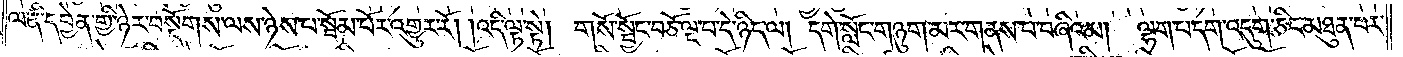ལ་ནི་དབྱེན་གྱི་ཉེར་བསྡོགས་ལས་ཉེས་པ་སྦོམ་པོར་འགྱུར་རོ། །འདི་ལྟ་སྟེ། གསོ་སྦྱོང་བཅོ་ལྔ་པ་དེ་ཉིད་ལ། དགེ་སློང་གཉུག་མར་གནས་པ་བཞིའམ། ལྷག་པ་དག་འདུག་ཅིང་མཐུན་པར་
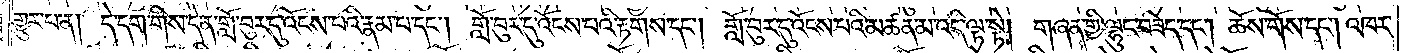གྱུར་པ་ན། དེ་དག་གིས་དེ་ན་གློ་བུར་དུ་འོངས་པའི་རྣམ་པ་དང༌། གློ་བུར་དུ་འོངས་པའི་རྟགས་དང༌། གློ་བུར་དུ་འོངས་པའི་མཚན་མ་འདི་ལྟ་སྟེ། གཞན་གྱི་ལྷུང་བཟེད་དང༌། ཆོས་གོས་དང༌། འཁར་
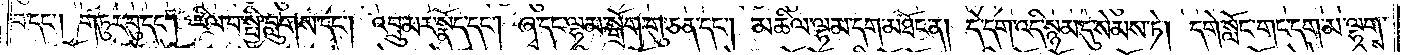བ་དང༌། གཏུར་བུ་དང༌། རིལ་བ་སྤྱི་བླུགས་དང༌། འབྲུ་མར་སྣོད་དང༌། ཞྭ་དང་ལྷམ་སྒྲོག་གུ་ཅན་དང༌། མཆིལ་ལྷམ་དག་མཐོང་ན། དེ་དག་འདི་སྙམ་དུ་སེམས་ཏེ། དགེ་སློང་གང་དག་མ་ལྷགས་
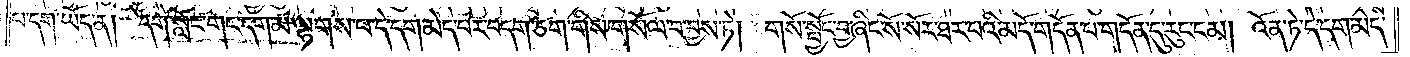པ་དག་ཡོད་ན། དགེ་སློང་གང་དག་མ་ལྷགས་པ་དེ་དག་མེད་པར་བདག་ཅག་གིས་གསོལ་བ་བྱས་ཏེ། གསོ་སྦྱོང་བྱ་ཞིང་སོ་སོར་ཐར་པའི་མདོ་གདོན་པ་གདོན་དུ་རུང་ངམ། འོན་ཏེ་དེ་དག་མེད་
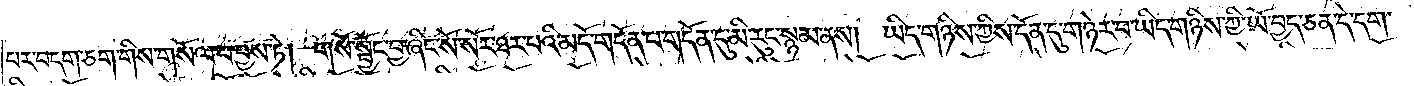བར་བདག་ཅག་གིས་གསོལ་བ་བྱས་ཏེ། གསོ་སྦྱོང་བྱ་ཞིང་སོ་སོར་ཐར་པའི་མདོ་གདོན་པ་གདོན་དུ་མི་རུང་སྙམ་ནས། ཡིད་གཉིས་ཀྱིས་དོན་དུ་གཉེར་བ་ཡིད་གཉིས་ཀྱི་ཡོ་བྱད་ཅན་དེ་དག་
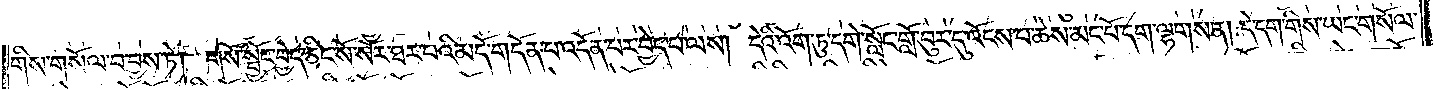གིས་གསོལ་བ་བྱས་ཏེ། གསོ་སྦྱོང་བྱེད་ཅིང་སོ་སོར་ཐར་པའི་མདོ་གདོན་པ་འདོན་པར་བྱེད་པ་ལས། དེའི་འོག་ཏུ་དགེ་སློང་གློ་བུར་དུ་འོངས་པ་ཆེས་མང་པོ་དག་ལྷགས་ན། དེ་དག་གིས་ཡང་གསོལ་
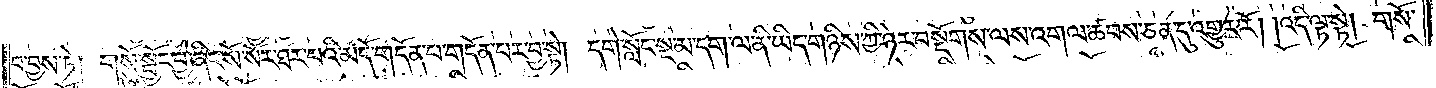བ་བྱས་ཏེ། གསོ་སྦྱོང་བྱ་ཞིང་སོ་སོར་ཐར་པའི་མདོ་གདོན་པ་གདོན་པར་བྱ་སྟེ། དགེ་སློང་སྔ་མ་དག་ལ་ནི་ཡིད་གཉིས་ཀྱི་ཉེར་བསྡོགས་ལས་འགལ་ཚབས་ཅན་དུ་འགྱུར་རོ། །འདི་ལྟ་སྟེ། གསོ་
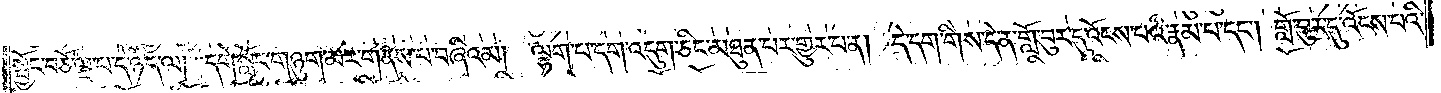སྦྱོང་བཅོ་ལྔ་པ་དེ་ཉིད་ལ། དགེ་སློང་གཉུག་མར་གནས་པ་བཞིའམ། ལྷག་པ་དག་འདུག་ཅིང་མཐུན་པར་གྱུར་པ་ན། དེ་དག་གིས་དེ་ན་གློ་བུར་དུ་འོངས་པའི་རྣམ་པ་དང༌། གློ་བུར་དུ་འོངས་པའི་
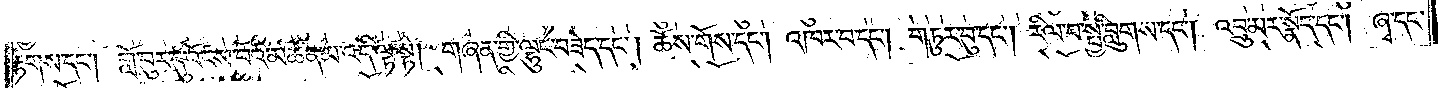རྟགས་དང༌། གློ་བུར་དུ་འོངས་པའི་མཚན་མ་འདི་ལྟ་སྟེ། གཞན་གྱི་ལྷུང་བཟེད་དང༌། ཆོས་གོས་དང༌། འཁར་བ་དང༌། གཏུར་བུ་དང༌། རིལ་བ་སྤྱི་བླུགས་དང༌། འབྲུ་མར་སྣོད་དང༌། ཞྭ་དང་
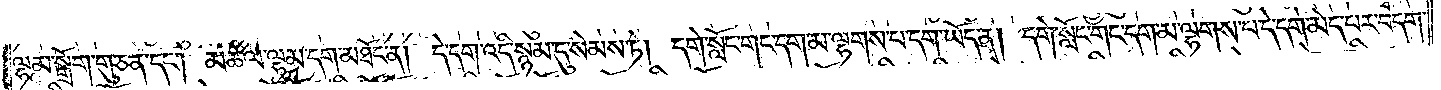ལྷམ་སྒྲོག་གུ་ཅན་དང༌། མཆིལ་ལྷམ་དག་མཐོང་ན། དེ་དག་འདི་སྙམ་དུ་སེམས་ཏེ། དགེ་སློང་གང་དག་མ་ལྷགས་པ་དག་ཡོད་ན། དགེ་སློང་གང་དག་མ་ལྷགས་པ་དེ་དག་མེད་པར་བདག་
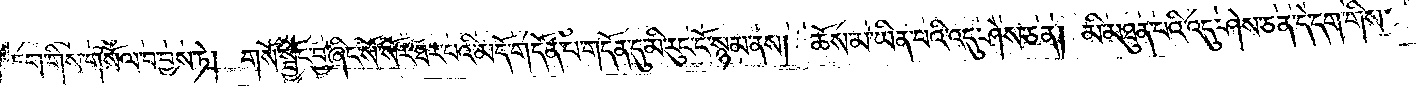ཅག་གིས་གསོལ་བ་བྱས་ཏེ། གསོ་སྦྱོང་བྱ་ཞིང་སོ་སོར་ཐར་པའི་མདོ་གདོན་པ་གདོན་དུ་མི་རུང་ངོ་སྙམ་ནས། ཆོས་མ་ཡིན་པའི་འདུ་ཤེས་ཅན། མི་མཐུན་པའི་འདུ་ཤེས་ཅན་དེ་དག་གིས་
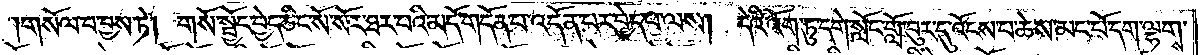།གསོལ་བ་བྱས་ཏེ། གསོ་སྦྱོང་བྱེད་ཅིང་སོ་སོར་ཐར་པའི་མདོ་གདོན་པ་འདོན་པར་བྱེད་པ་ལས། དེའི་འོག་ཏུ་དགེ་སློང་གློ་བུར་དུ་འོངས་པ་ཆེས་མང་པོ་དག་ལྷགས་
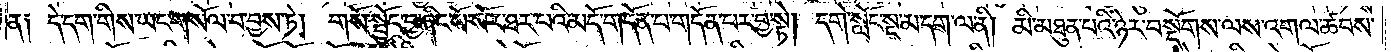ན༑ དེ་དག་གིས་ཡང་གསོལ་བ་བྱས་ཏེ། གསོ་སྦྱོང་བྱ་ཞིང་སོ་སོར་ཐར་པའི་མདོ་གདོན་པ་གདོན་པར་བྱ་སྟེ། དགེ་སློང་སྔ་མ་དག་ལ་ནི། མི་མཐུན་པའི་ཉེར་བསྡོགས་ལས་འགལ་ཚབས་
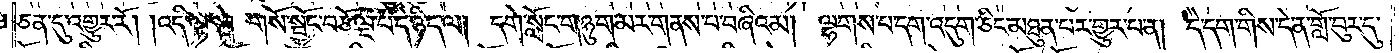ཅན་དུ་འགྱུར་རོ། །འདི་ལྟ་སྟེ། གསོ་སྦྱོང་བཅོ་ལྔ་པ་དེ་ཉིད་ལ། དགེ་སློང་གཉུག་མར་གནས་པ་བཞིའམ། ལྷགས་པ་དག་འདུག་ཅིང་མཐུན་པར་གྱུར་པ་ན། དེ་དག་གིས་དེ་ན་གློ་བུར་དུ་
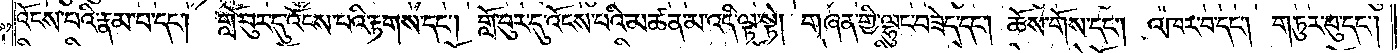འོངས་པའི་རྣམ་པ་དང༌། གློ་བུར་དུ་འོངས་པའི་རྟགས་དང༌། གློ་བུར་དུ་འོངས་པའི་མཚན་མ་འདི་ལྟ་སྟེ། གཞན་གྱི་ལྷུང་བཟེད་དང༌། ཆོས་གོས་དང༌། འཁར་བ་དང༌། གཏུར་བུ་དང༌།
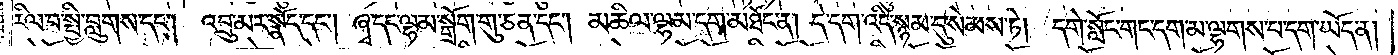རིལ་བ་སྤྱི་བླུགས་དང༌། འབྲུ་མར་སྣོད་དང༌། ཞྭ་དང་ལྷམ་སྒྲོག་གུ་ཅན་དང༌། མཆིལ་ལྷམ་དག་མཐོང་ན། དེ་དག་འདི་སྙམ་དུ་སེམས་ཏེ། དགེ་སློང་གང་དག་མ་ལྷགས་པ་དག་ཡོད་ན།
